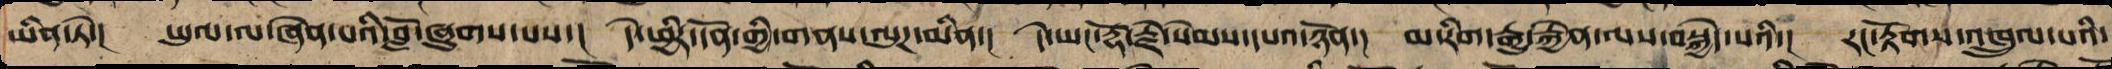ཡིན་ཏེ་། ཡུལ་ལ་ཞེན་པའི་བློ་ཞུགས་པས་། དེ་ཕྱིར་དོན་གྱི་གནས་ལུཌ་མིན་། དེ་ཡང་རྡོ་རྗེ་སེམས་དཔའ་ཉོན་། མ་རིག་རྒྱུ་རྐྱེན་ལས་བསྐྱེད་པའི་། རང་རྟོགས་འཁྲུལ་པའི་
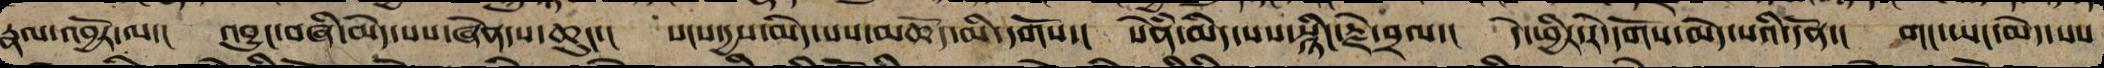རྣལ་འབྱོར་ལ་། འབྱུང་བཞི་མེད་པས་ཞེན་པ་ཆུང་། སངས་དྱས་མེད་པས་མཆོད་མི་དགོས་། སེཾན་མེད་པས་སྙིང་རྗེ་བྲལ་། དེ་ཕྱིར་རེ་དོགས་མེད་པའི་དོན་། གང་ཡང་མེད་པས
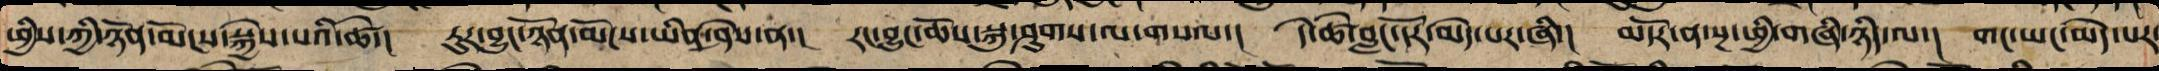ཕྱིས་ཀྱི་ཉོན་མོངས་སྐྱེས་པའི་ཚེ་། ཏུར་བྱུང་ཉོན་མོངས་ཡིན་ཤེས་ན་། རང་བྱུང་ཆོས་སྐུ་ཤུགས་ལ་གསལ་། དེ་ཚེ་བླང་དོར་མེད་པར་ཞི་། མདོར་ན་སྔ་ཕྱི་གཞི་ཉིད་ལ་། གང་ཡང་མེད་པར་
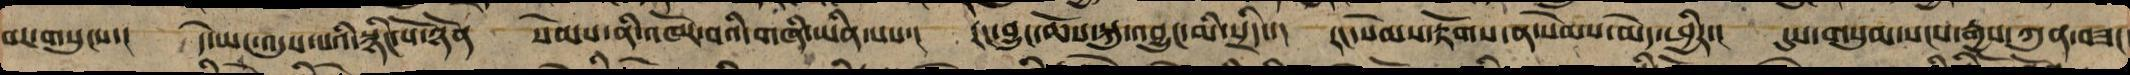བར་གསུངས་།  དེ་ཡང་འདུས་པའི་སྙིང་པོ་ཉོན  སེམས་ནི་འཁོར་བའི་གཞི་ཡིན་པས་།  རང་བྱུང་ཆོས་སྐུ་འབྱུང་མི་སྲིད་་། རང་སེམས་རྟོགས་ན་སེམས་མེད་ཕྱིར་།  དུས་གསུམ་སངས་རྒྱས་ཀུན་བཟང
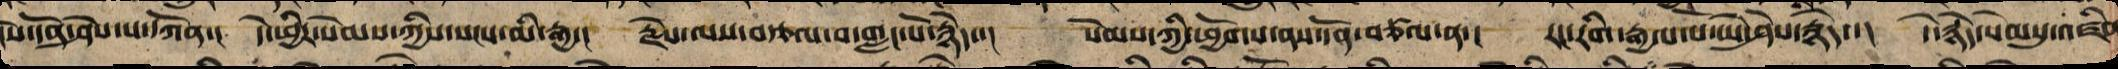ངེས་དོན་ཤེས་པ་དཀོན་། དེ་ཕྱིར་སེམས་ཀྱིས་སངས་མི་རྒྱ་། རྗེས་ལས་བརྩལ་བས་གླང་པོ་རྙེད་། སེམས་ཀྱི་ཕྱོགས་ནས་དོན་བཙལ་ན་། རང་རིག་རྒྱལ་པོ་ཡེ་ཤེས་རྙེད་། དེ་རྙེད་སེམསུ་འཛིན
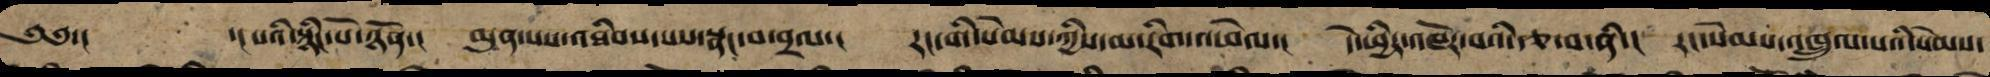༄༅་།     ་།པའི་སྙིང་པོ་ཉོན་། མུན་པས་འཐིབས་པས་སྣང་བ་བྲལ་།  རང་གི་སེམས་ཀྱིས་མ་རིག་འཕེལ་།  དེ་ཕྱིར་འཁོར་བའི་རྩ་བ་ནི་། རང་སེམས་འཁྲུལ་པའི་སེམས་
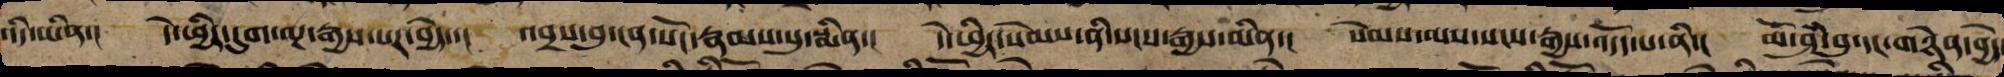འདི་ཡིན་།   དེ་ཕྱིར་དུག་ལྔ་རྒྱས་པར་བྱེ་ད།  འབྲས་བུ་ངན་སོང་རྣམས་སུ་སྨིན་།  དེ་ཕྱིར་སེམས་ནི་སངས་རྒྱས་མིན་།  སེམས་ལས་སངས་རྒྱས་འདོད་པ་ནི་།  མོ་ཤཾ་བུ་དང་གཉེན་བྱེད
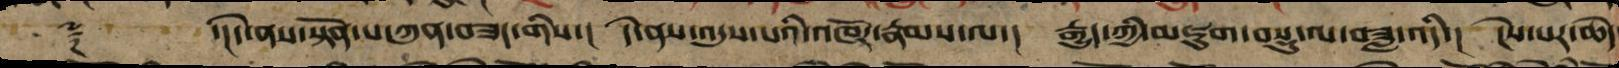༈      ་།།དེ་ནས་སྟོན་པ་ཀུན་བཟང་གིས་།  དེ་ནས་འདུས་པའི་འཁོར་རྣམས་ལ་།  རྒྱུད་ཀྱི་མཇུག་བསྡུ་ལ་བཟླ་འདི་།  ངེས་པར་ཆེད
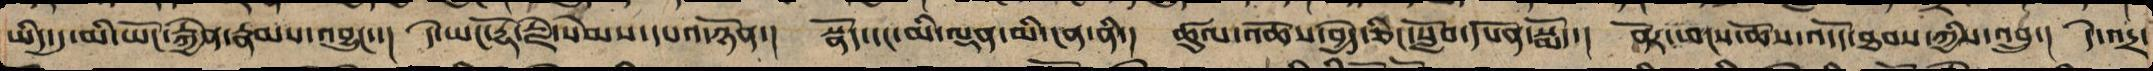ཡིད་དུ་མི་ཡོང་རྐྱེན་རྣམས་འབྱུང་་། དེ་ཡང་རྡོ་རྗེ་སེམས་དཔའ་ཉོན་། སྣོད་དང་མི་ལྡན་མི་ངན་ནི་།  ཚུལ་འཆོས་བྱེད་ཅིང་སློབ་དཔོན་སྨོད་། ནོར་ཕངས་ཆོས་འདོད་ཐབས་ཀྱིས་འབྲུ་། དེ་འདྲ་
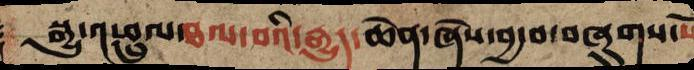སྒྱུ་འཕྲུལ་ཐལ་བའི་རྒྱུད་ཆེན་ཞེས་བྱ་བ་བཞུགས་སོ
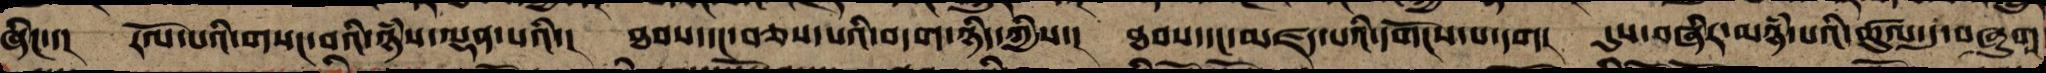ཞིང་་། རོལ་པའི་གསང་བའི་ཉཾས་ལྡན་པའི་། ཐབས་དང་བཅས་པའི་བདག་ཉིད་ཀྱིས་། ཐབས་དང་མཛད་པའི་དགོངས་པ་དག། དུས་བཞིར་མཉཾ་པའི་ཚུལ་དུ་བཞུགས
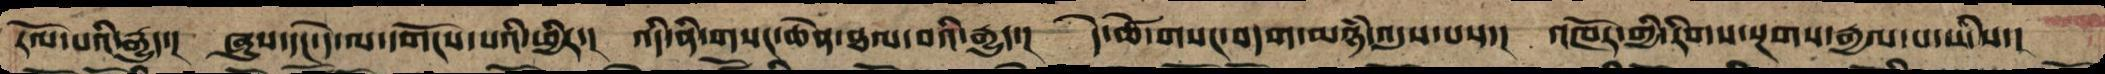རོལ་པའི་རྒྱུད་། ཞུས་དང་དེ་ལ་དགོངས་པའི་ཕྱིར་། འདི་ནི་གསང་ཆེན་ཐལ་བའི་རྒྱུད་། དེ་ཚེ་གསང་བདག་མཉཾ་འདུས་པས་། འཁོར་གྱི་རིག་སྔགས་རྒྱལ་པོ་ཡིས་།
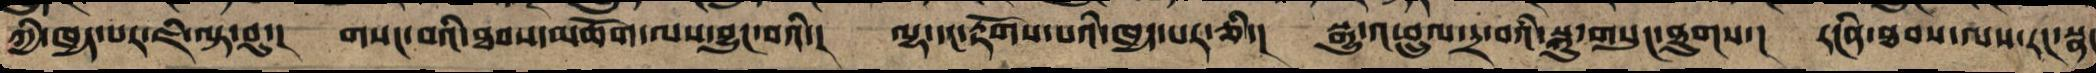ཀྱི་ཁྱད་པར་ཅི་ལྟ་བུ་།   གསང་བའི་ཐབས་མཆོག་ལས་བྱུང་བའི་།  ལྷ་དང་རྟོགས་པའི་ཁྱད་པར་ཅི་།  སྒྱུ་འཕྲུལ་དྲ་བའི་སྐུ་གསུང་ཐུགས་།  རངིན་ཐབས་ལས་རང་སྣང་
